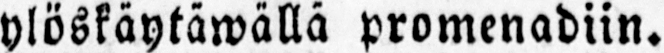ylöskäytäwällä promenadiin.
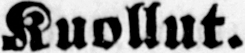Kuollut.
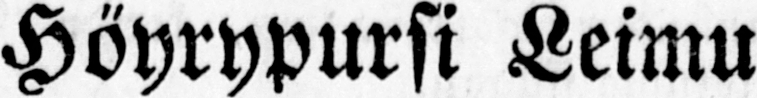Höyrypursi Leimu
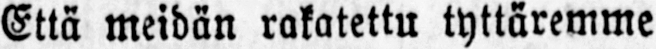Että meidän rakatettu tyttäremme
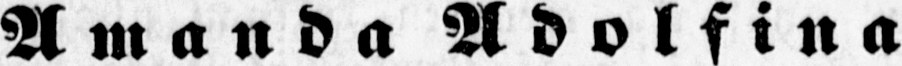Amanda Adolfina
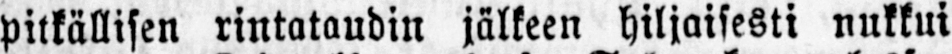pitkällisen rintataudin jälkeen hiljaisesti nukkui
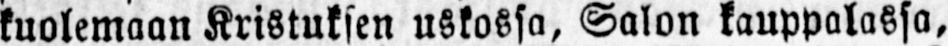kuolemaan Kristuksen uskossa. Salon kauppalassa,
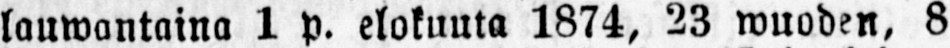lauwantaina 1 p. elokuuta 1874, 23 wuoden, 8
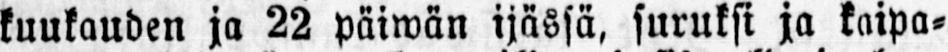kuukauden ja 22 päiwän ijässä, suruksi ja kaipa-
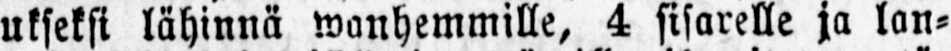ukseksi lähinnä wanhemmille, 4 sisarelle ja lan-
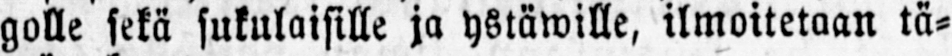golle setä sukulaisille ja ystätwille, ilmoitetaan tä-
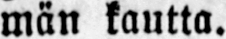män kautta.
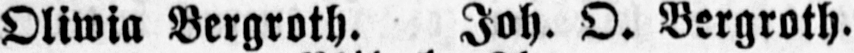Oliwia Bergroth. Joh. O. Bergroth.
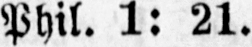Phil. 1: 21.
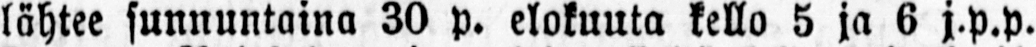lähtee sunnuntaina 30 p. elokuuta kello 5 ja 6 j.p.p.
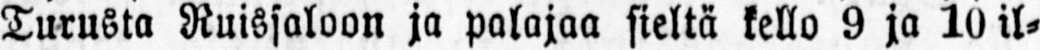Turusta Ruissaloon ja palajaa sieltä kello 9 ja 10 il-
